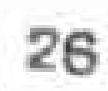26
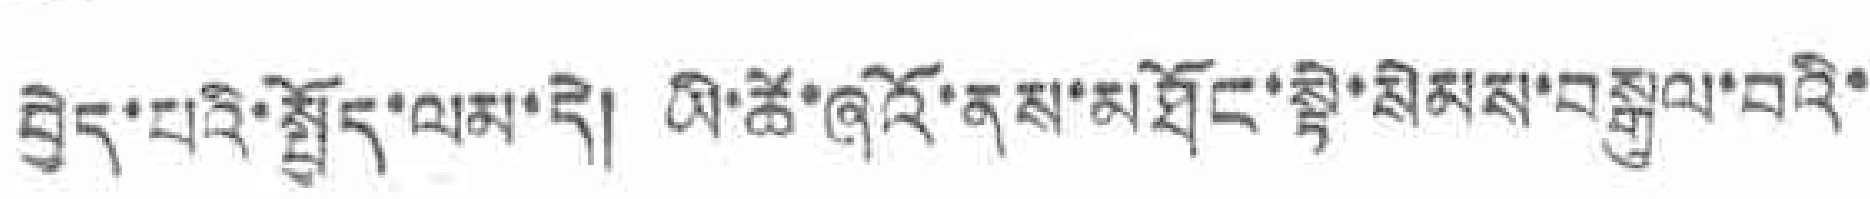བྱེད་པའི་སྤྱོད་ལམ་དེ། ཡི་ཚེ་ཞའོ་ནས་མཐོང་སྟེ་སིམས་བསྒུལ་བའི་
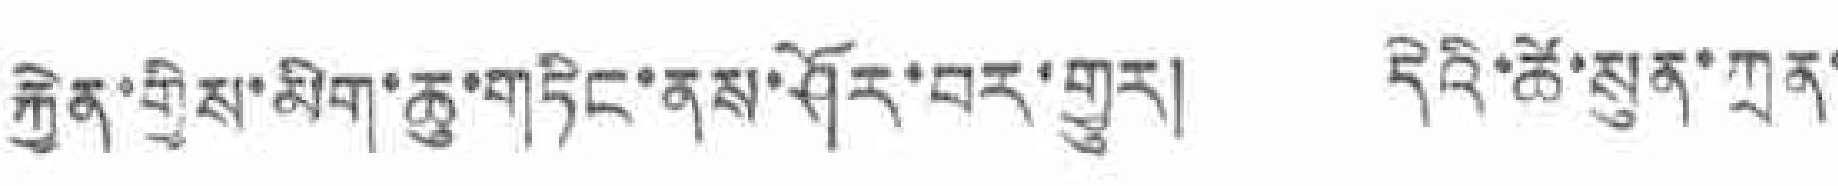རྐྱེན་གྱིས་མིག་ཆུ་གཏིང་ནས་ཤོར་བར་གྱུར། དེའི་ཚེ་སུན་ཀྲན་
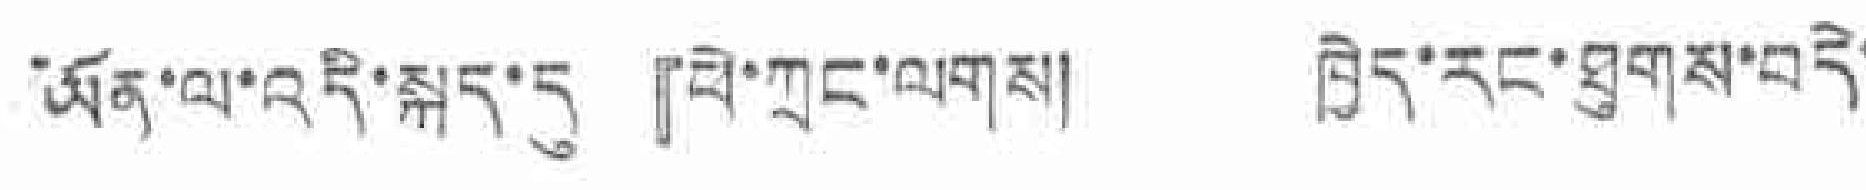ཡོན་ལ་འདི་སྐད་དུ『ཕེ་ཀྲང་ལགས། ཁྱེད་རང་ཐུགས་བདེ་
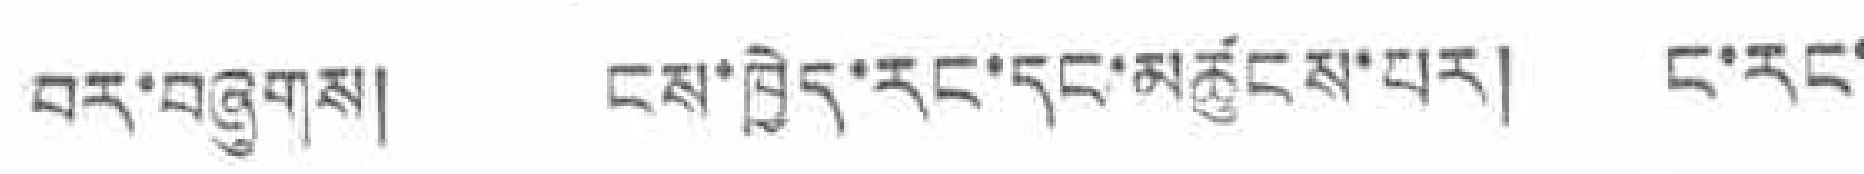བར་བཞུགས། ངས་ཁྱེད་རང་དང་མཚུངས་པར། ང་རང་
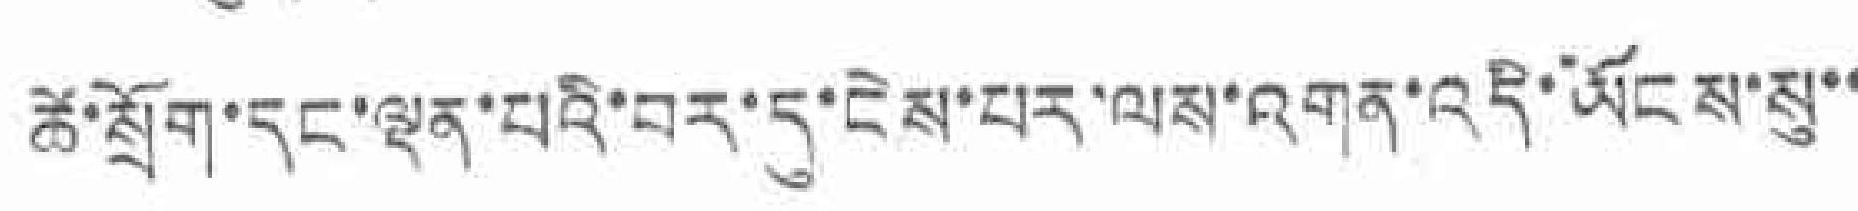ཚེ་སྲོག་དང་ལྡན་པའི་བར་དུ་ངེས་པར་ལས་འགན་འདི་ཡོངས་སུ་་
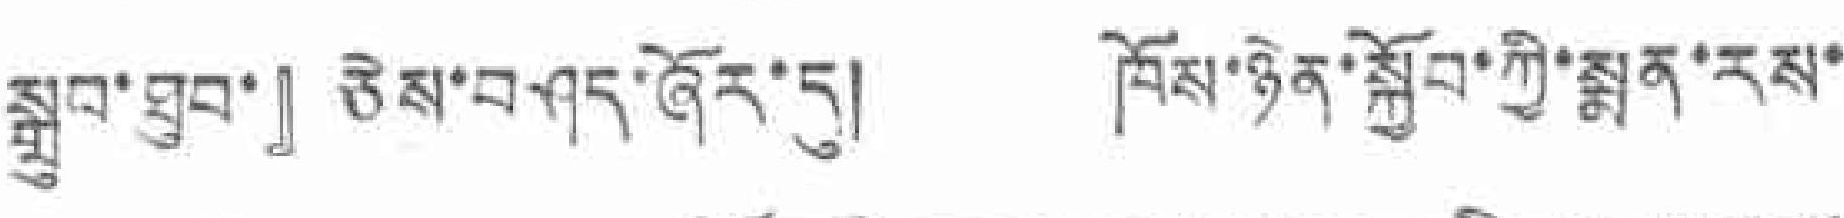སྒྲུབ་ཐུབ་』ཅེས་བཤད་ཞོར་དུ། ཁོས་ཉེན་སྐྱོབ་ཀྱི་སྨན་རས་
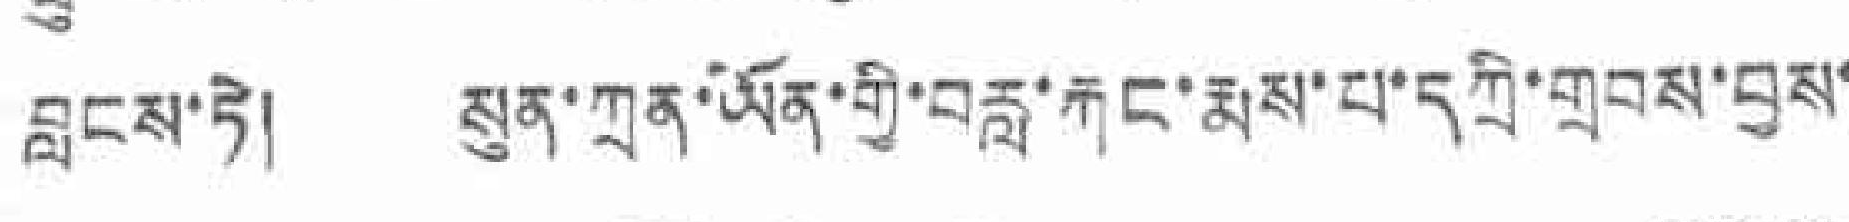བླངས་ཏེ། སུན་ཀྲན་ཡོན་གྱི་བརླ་རྐང་རྨས་པ་དཀྲི་གྲབས་བྱས་
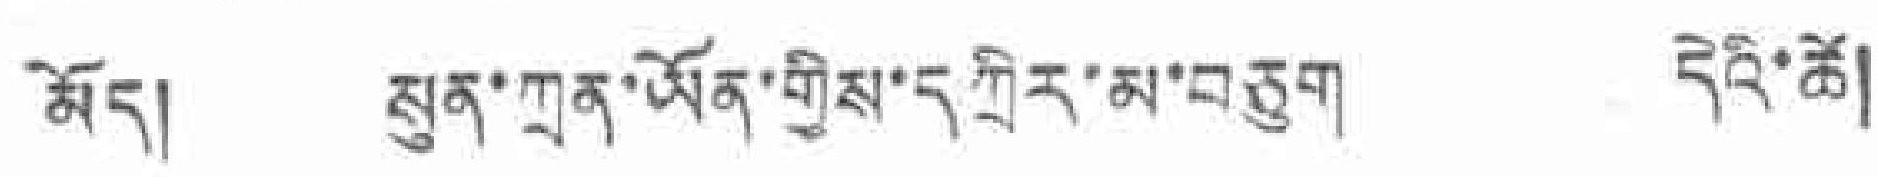མོད། སུན་ཀྲན་ཡོན་གྱིས་དཀྲིར་མ་བཅུག དེའི་ཚེ།
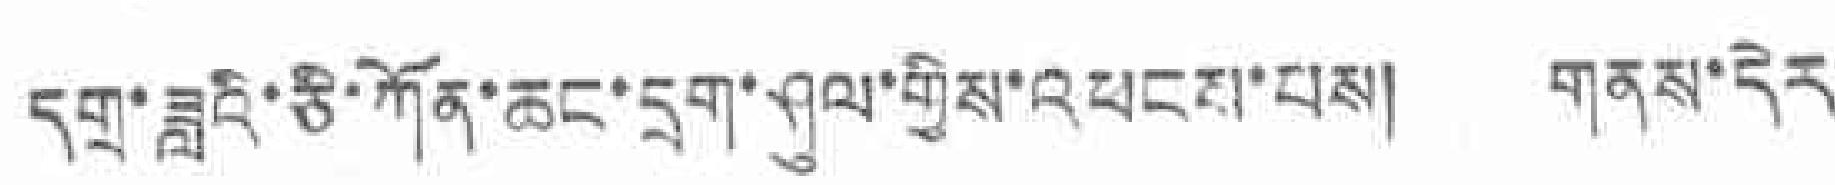དགྲ་ཟླའི་ཅི་ཀོན་ཆང་དྲག་ཤུལ་གྱིས་འཕངས་པས། གནས་དེར་
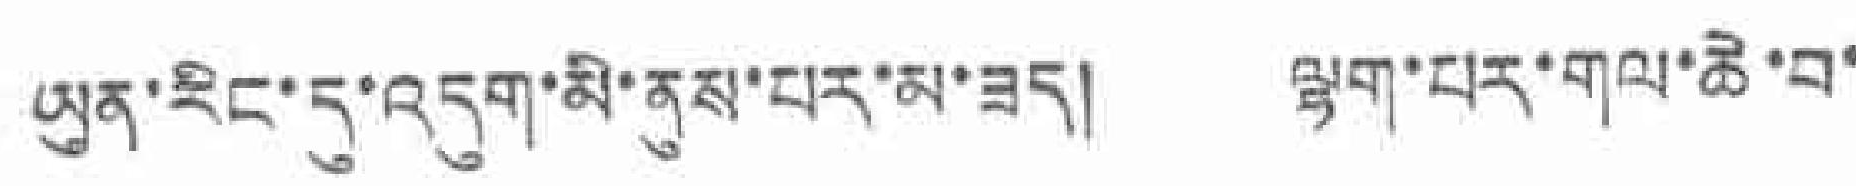ཡུན་རིང་དུ་འདུག་མི་ནུས་པར་མ་ཟད། ལྷག་པར་གལ་ཆེ་བ་
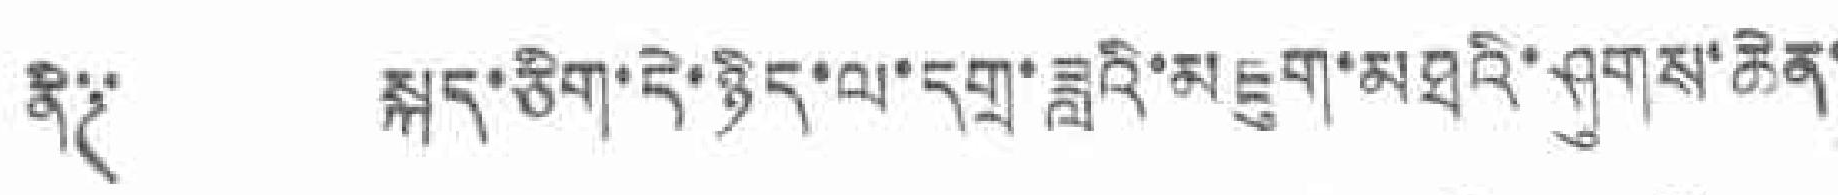ནི༐ སྐད་ཅིག་དེ་ཉིད་ལ་དགྲ་ཟླའི་མཇུག་མཐའི་ཤུགས་ཆེན་
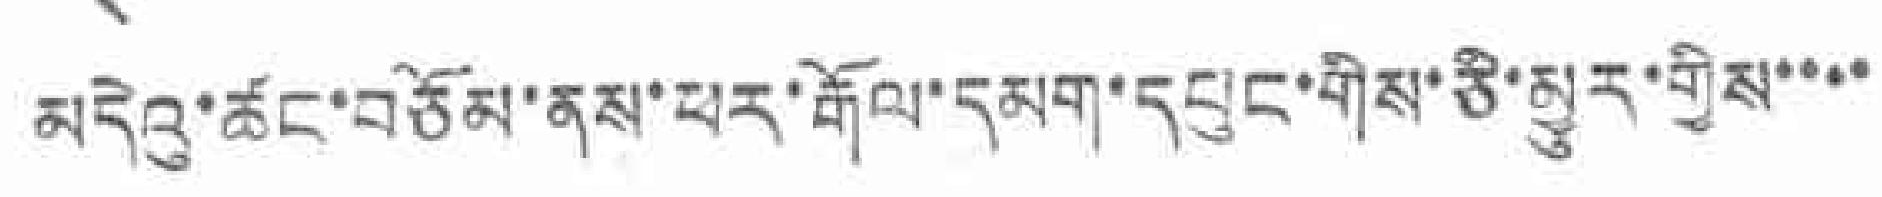མདེའུ་ཚང་བཅོམ་ནས་ཕར་རྒོལ་དམག་དཔུང་གིས་ཅི་མྱུར་གྱིས་་་་
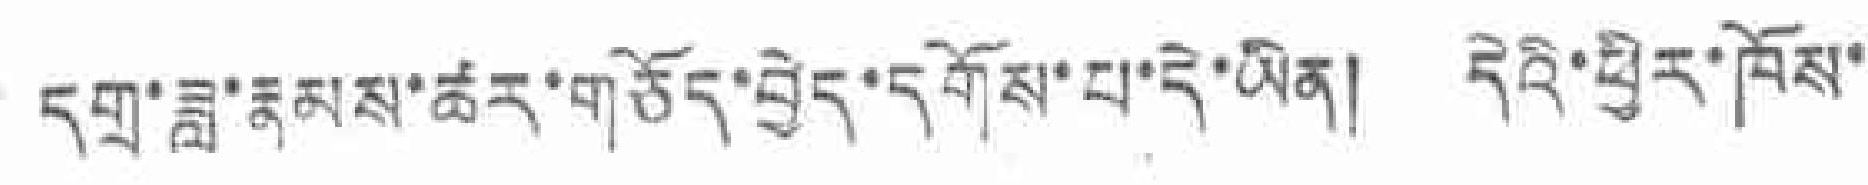དགྲ་ཟླ་རྣམས་ཚར་གཅོད་བྱེད་དགོས་པ་དེ་ཡིན། དེའི་ཕྱིར་ཁོས་
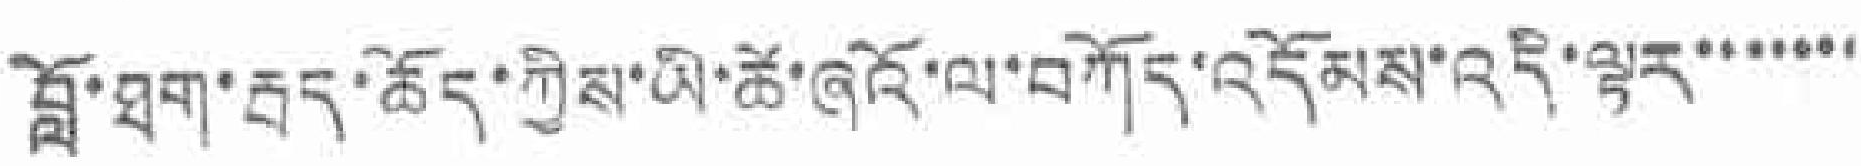བློ་ཐག་རྦད་ཆོད་ཀྱིས་ཡི་ཚེ་ཞའོ་ལ་བཀོད་འདོམས་འདི་ལྟར་་་་་་་
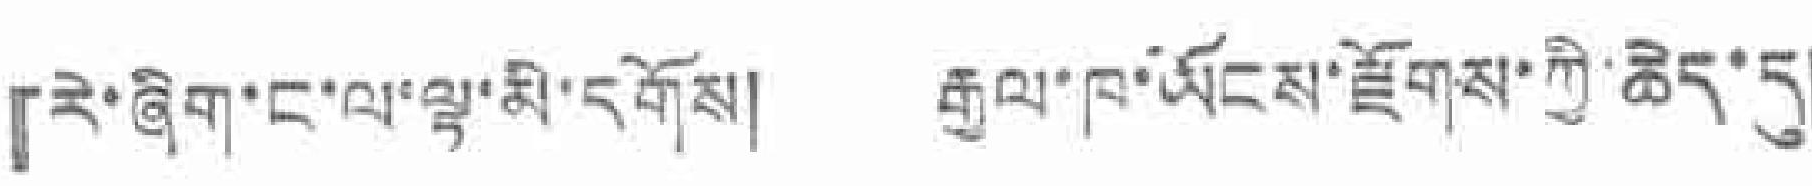『རེ་ཞིག་ང་ལ་ལྟ་མི་དགོས། རྒྱལ་ཁ་ཡོངས་རྫོགས་ཀྱི་ཆེད་དུ།
